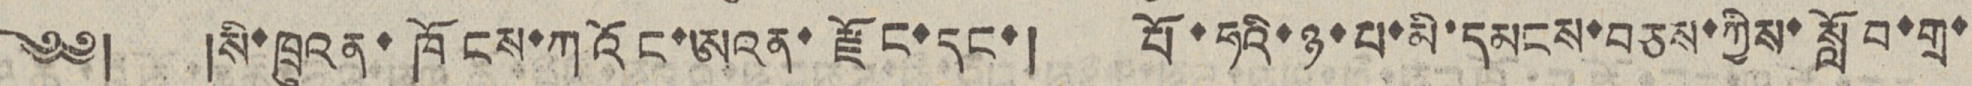༄༅། །སི་ཁྲུའན་ཁོངས་ཀའོང་ཨའན་རྫོང་དང་། པོ་ཧའི་ཉ་པ་མི་དམངས་བཅས་ཀྱི་སློབ་གྲ་
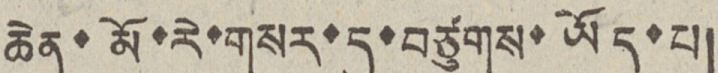ཆེན་མོ་རེ་གསར་དུ་བཙུགས་ཡོད་པ།
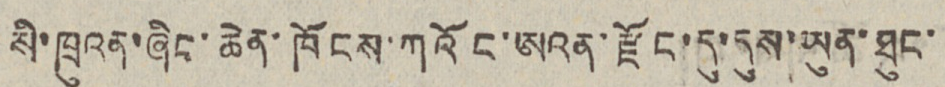སི་ཁྲུའན་ཞིང་ཆེན་ཁོངས་ཀའོང་ཨན་རྫོང་དུ་དུས་ཡུན་ཐུང་
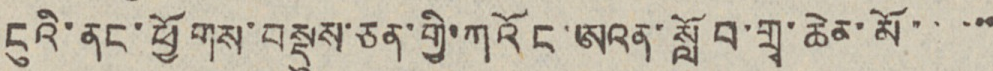ངུའི་ནང་ཕྱོགས་བསྡུས་ཅན་གྱི་ཀའོང་ཨའན་སློབ་གྲྭ་ཆེན་མོ་་་་་
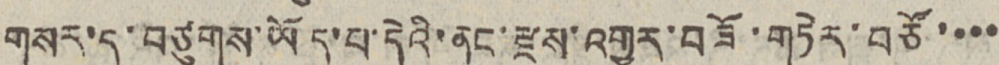གསར་དུ་བཙུགས་ཡོད་པ་དེའི་ནང་རྫས་འགྱུར་བཟོ་གཏེར་བཙོ་་་་
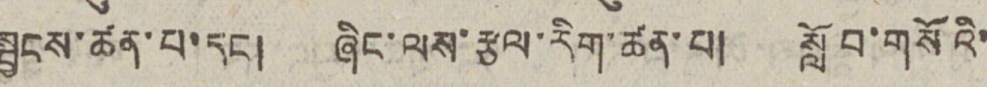སྦྱངས་ཚན་པ་དང། ཞིང་ལས་རྩལ་རིག་ཚན་པ། སློབ་གསོའི་
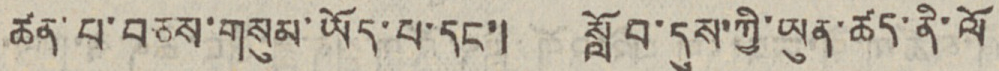ཚན་པ་བཅས་གསུམ་ཡོད་པ་དང་། སློབ་དུས་ཀྱི་ཡུན་ཚད་ནི་ལོ་
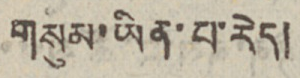གསུམ་ཡིན་པ་རེད།
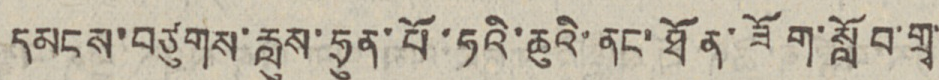དམངས་བཙུགས་རླུས་ཧྲུན་པོ་ཧའི་ཆུའི་ནང་ཐོན་ཟོག་སློབ་གྲྭ་
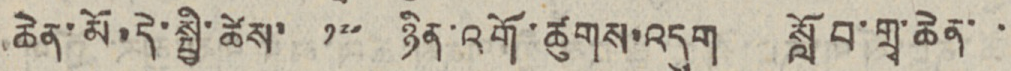ཆེན་མོ་དེ་སྤྱི་ཚེས་ ༡༧ ཉིན་འགོ་ཚུགས་འདུག སློབ་གྲྭ་ཆེན་ ་
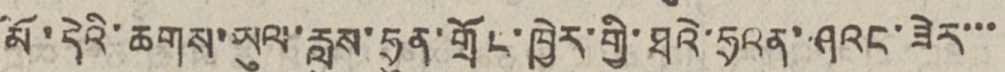མོ་དེའི་ཆགས་ཡུལ་རླུས་ཧྲུན་གྲོང་ཁྱེར་གྱི་ཐའེ་ཧྲའན་ཤའང་ཟེར་་་
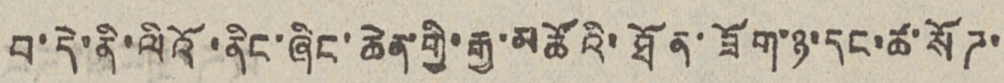བ་དེ་ནི་ལིའོ་ནིང་ཞིང་ཆེན་གྱི་རྒྱ་མཚོའི་ཐོན་ཟོག་ཉ་དང་ཚ་སོཊ་
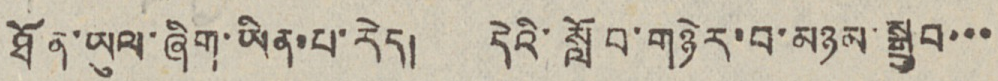ཐོན་ཡུལ་ཞིག་ཡིན་པ་རེད། དེའི་སློབ་གཉེར་བ་མཉམ་སྒྲུབ་་་
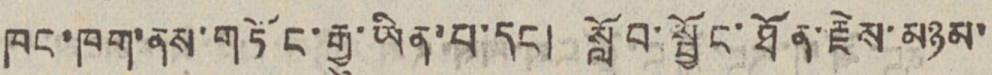ཁང་ཁག་ནས་གཏོང་རྒྱུ་ཡིན་པ་དང། སློབ་སྦྱོང་ཐོན་རྗེས་མཉམ་
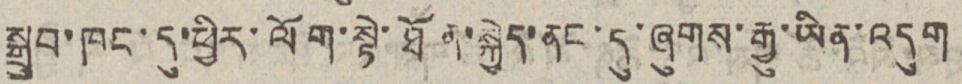སྒྲུབ་ཁང་དུ་ཕྱིར་ལོག་སྟེ་ཐོན་སྐྱེད་ནང་དུ་ཞུགས་རྒྱུ་ཡིན་འདུག
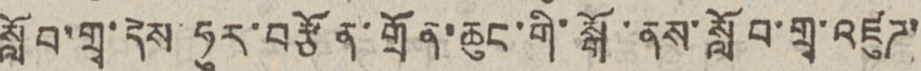སློབ་གྲྭ་དེས་ཧུར་བརྩོན་གྲོན་ཆུང་གི་སྒོ་ནས་སློབ་གྲྭ་འཛུཊ་
